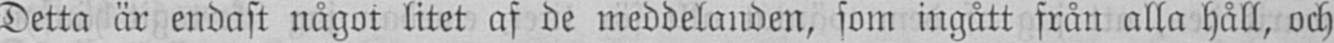Detta är endast något litet af de meddelanden, som ingått från alla håll, och
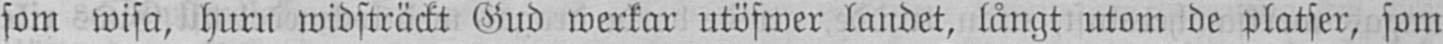som wisa, huru widsträckt Gud werkar utöfwer landet, långt utom de platser, som
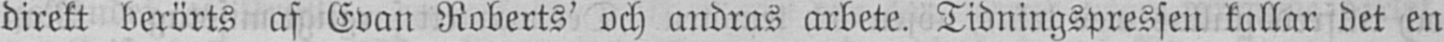direkt berörts af Evan Roberts' och andras arbete. Tidningspressen kallar det en
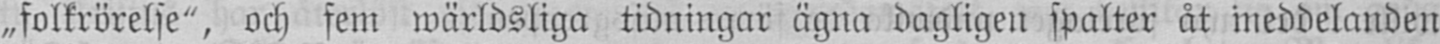„folkrörelse", och fem wärldsliga tidningar ägna dagligen spalter åt meddelanden
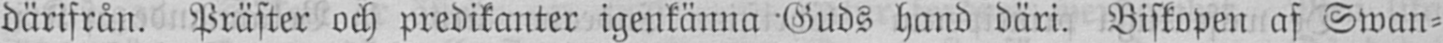därifrån. Präster och predikanter igenkänna Guds hand däri. Biskopen af Swan-
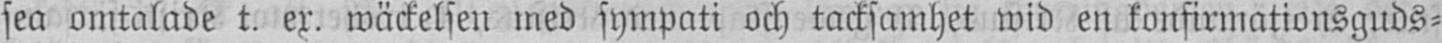sea omtalade t. ex. wäckelsen med sympati och tacksamhet wid en konfirmationsguds-
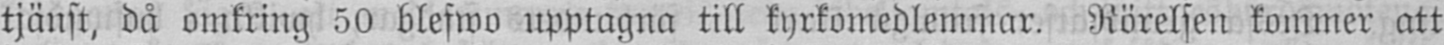tjänst, då omkring 50 blefwo upptagna till kyrkomedlemmar. Rörelsen kommer att
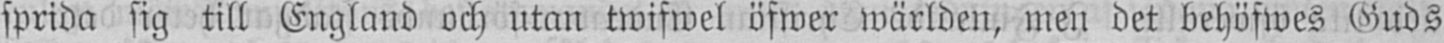sprida sig till England och utan twifwel öfwer wärlden, men det behöfwes Guds
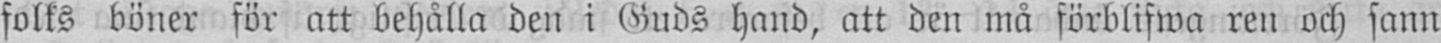folks böner för att behålla den i Guds hand, att den må förblifwa ren och sann
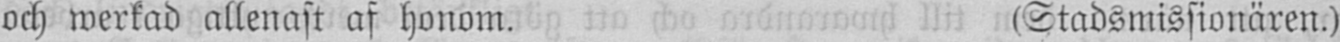och werkad allenast af honom. (Stadsmissionären.)
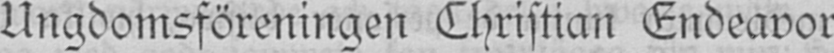Ungdomsföreningen Christian Endeavor
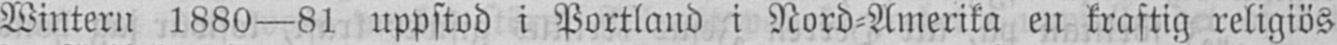Wintern 1880—81 uppstod i Portland i Nord-Amerika en kraftig religiös
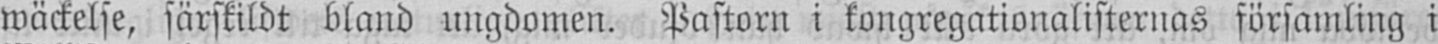wäckelse, särskildt bland ungdomen. Pastorn i kongregationalisternas församling i
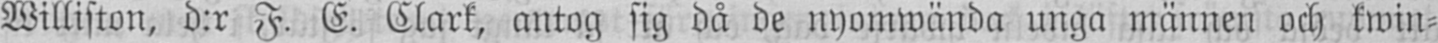Williston, d:r F. E. Clark, antog sig då de nyomwända unga männen och kwin-
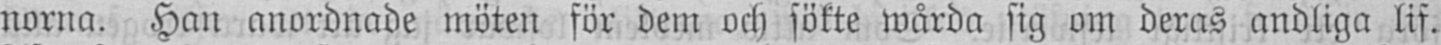norna. Han anordnade möten för dem och sökte wårda sig om deras andliga lif.
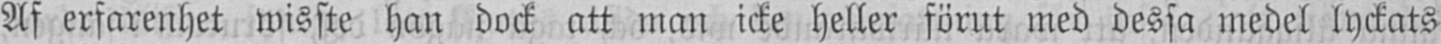Af erfarenhet wisste han dock att man icke heller förut med dessa medel lyckats
